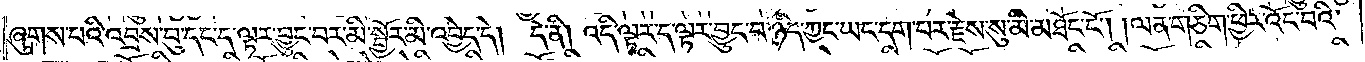ཞུགས་པའི་འབྲས་བུ་དང་ད་ལྟར་བྱུང་བར་མི་སྦྱོར་མི་འབྱེད་དེ། དེ་ནི། འདི་ལྟར་ད་ལྟར་བྱུང་བ་ཉིད་ཀྱང་ཡང་དག་པར་རྗེས་སུ་མི་མཐོང་ངོ༌། །ལན་གཅིག་ཕྱིར་འོང་བའི་
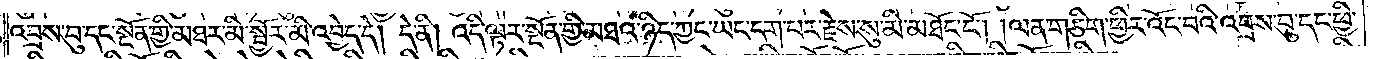འབྲས་བུ་དང་སྔོན་གྱི་མཐར་མི་སྦྱོར་མི་འབྱེད་དེ། དེ་ནི། འདི་ལྟར་སྔོན་གྱི་མཐའ་ཉིད་ཀྱང་ཡང་དག་པར་རྗེས་སུ་མི་མཐོང་ངོ༌། །ལན་གཅིག་ཕྱིར་འོང་བའི་འབྲས་བུ་དང་ཕྱི་
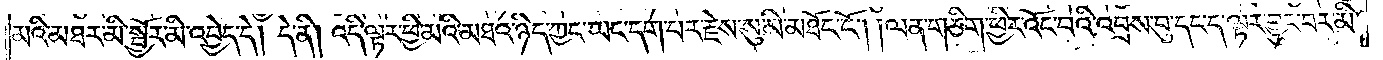མའི་མཐར་མི་སྦྱོར་མི་འབྱེད་དེ། དེ་ནི། འདི་ལྟར་ཕྱི་མའི་མཐའ་ཉིད་ཀྱང་ཡང་དག་པར་རྗེས་སུ་མི་མཐོང་ངོ༌། །ལན་གཅིག་ཕྱིར་འོང་བའི་འབྲས་བུ་དང་ད་ལྟར་བྱུང་བར་མི་
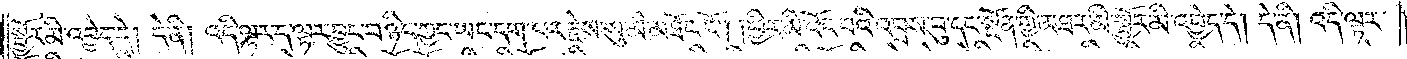སྦྱོར་མི་འབྱེད་དེ། དེ་ནི། འདི་ལྟར་ད་ལྟར་བྱུང་བ་ཉིད་ཀྱང་ཡང་དག་པར་རྗེས་སུ་མི་མཐོང་ངོ༌། །ཕྱིར་མི་འོང་བའི་འབྲས་བུ་དང་སྔོན་གྱི་མཐར་མི་སྦྱོར་མི་འབྱེད་དེ། དེ་ནི། འདི་ལྟར་
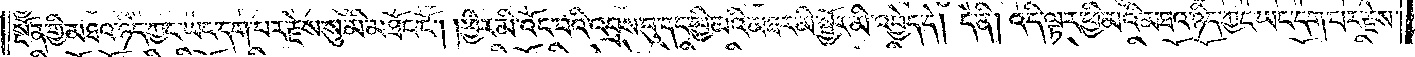སྔོན་གྱི་མཐའ་ཉིད་ཀྱང་ཡང་དག་པར་རྗེས་སུ་མི་མཐོང་ངོ༌། །ཕྱིར་མི་འོང་བའི་འབྲས་བུ་དང་ཕྱི་མའི་མཐར་མི་སྦྱོར་མི་འབྱེད་དེ། དེ་ནི། འདི་ལྟར་ཕྱི་མའི་མཐའ་ཉིད་ཀྱང་ཡང་དག་པར་རྗེས་
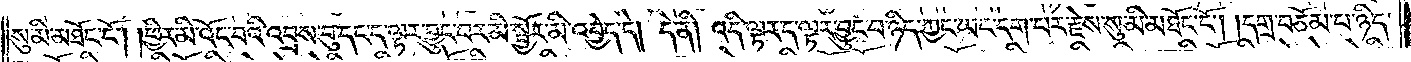སུ་མི་མཐོང་ངོ༌། །ཕྱིར་མི་འོང་བའི་འབྲས་བུ་དང་ད་ལྟར་བྱུང་བར་མི་སྦྱོར་མི་འབྱེད་དེ། དེ་ནི། འདི་ལྟར་ད་ལྟར་བྱུང་བ་ཉིད་ཀྱང་ཡང་དག་པར་རྗེས་སུ་མི་མཐོང་ངོ༌། །དགྲ་བཅོམ་པ་ཉིད་
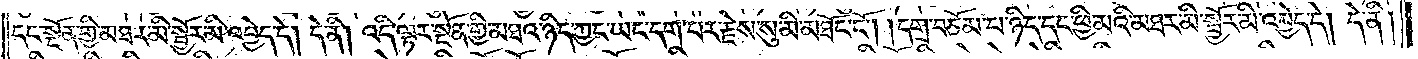དང་སྔོན་གྱི་མཐར་མི་སྦྱོར་མི་འབྱེད་དེ། དེ་ནི། འདི་ལྟར་སྔོན་གྱི་མཐའ་ཉིད་ཀྱང་ཡང་དག་པར་རྗེས་སུ་མི་མཐོང་ངོ༌། །དགྲ་བཅོམ་པ་ཉིད་དང་ཕྱི་མའི་མཐར་མི་སྦྱོར་མི་འབྱེད་དེ། དེ་ནི།
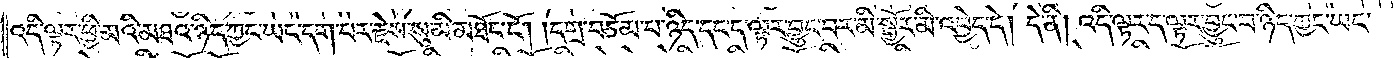འདི་ལྟར་ཕྱི་མའི་མཐའ་ཉིད་ཀྱང་ཡང་དག་པར་རྗེས་སུ་མི་མཐོང་ངོ༌། །དགྲ་བཅོམ་པ་ཉིད་དང་ད་ལྟར་བྱུང་བར་མི་སྦྱོར་མི་འབྱེད་དེ། དེ་ནི། འདི་ལྟར་ད་ལྟར་བྱུང་བ་ཉིད་ཀྱང་ཡང་
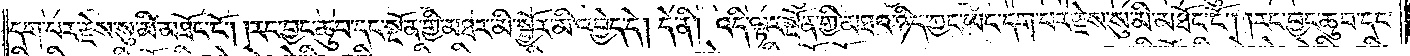དག་པར་རྗེས་སུ་མི་མཐོང་ངོ༌། །རང་བྱང་ཆུབ་དང་སྔོན་གྱི་མཐར་མི་སྦྱོར་མི་འབྱེད་དེ། དེ་ནི། འདི་ལྟར་སྔོན་གྱི་མཐའ་ཉིད་ཀྱང་ཡང་དག་པར་རྗེས་སུ་མི་མཐོང་ངོ༌། །རང་བྱང་ཆུབ་དང་
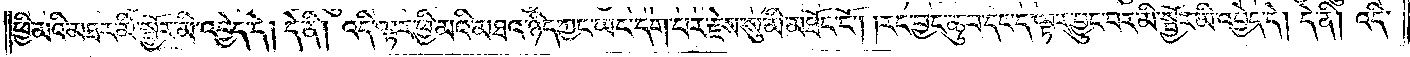ཕྱི་མའི་མཐར་མི་སྦྱོར་མི་འབྱེད་དེ། དེ་ནི། འདི་ལྟར་ཕྱི་མའི་མཐའ་ཉིད་ཀྱང་ཡང་དག་པར་རྗེས་སུ་མི་མཐོང་ངོ༌། །རང་བྱང་ཆུབ་དང་ད་ལྟར་བྱུང་བར་མི་སྦྱོར་མི་འབྱེད་དེ། དེ་ནི། འདི་
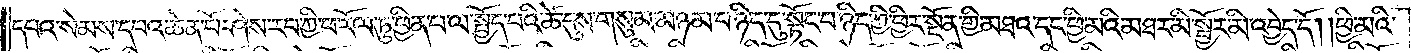དཔའ་སེམས་དཔའ་ཆེན་པོ་ཤེས་རབ་ཀྱི་ཕ་རོལ་ཏུ་ཕྱིན་པ་ལ་སྤྱོད་པའི་ཚེ་དུས་གསུམ་མཉམ་པ་ཉིད་དུ་སྟོང་པ་ཉིད་ཀྱི་ཕྱིར་སྔོན་གྱི་མཐའ་དང་ཕྱི་མའི་མཐར་མི་སྦྱོར་མི་འབྱེད་དོ། །ཕྱི་མའི་
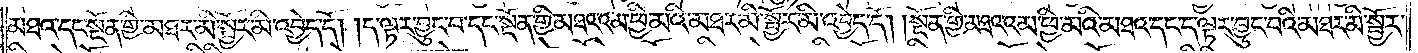མཐའ་དང་སྔོན་གྱི་མཐར་མི་སྦྱོར་མི་འབྱེད་དོ། །ད་ལྟར་བྱུང་བ་དང་སྔོན་གྱི་མཐའ་འམ་ཕྱི་མའི་མཐར་མི་སྦྱོར་མི་འབྱེད་དོ། །སྔོན་གྱི་མཐའ་མ་ཕྱི་མའི་མཐའ་དང་ད་ལྟར་བྱུང་བའི་མཐར་མི་སྦྱོར་
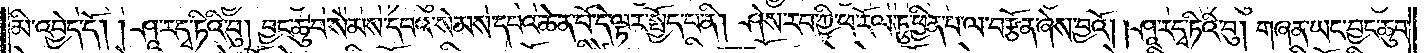མི་འབྱེད་དོ། །ཤཱ་ར་དྭ་ཏིའི་བུ། བྱང་ཆུབ་སེམས་དཔའ་སེམས་དཔའ་ཆེན་པོ་དེ་ལྟར་སྤྱོད་པ་ནི། ཤེས་རབ་ཀྱི་ཕ་རོལ་ཏུ་ཕྱིན་པ་ལ་བརྩོན་ཞེས་བྱའོ། །ཤཱ་ར་དྭ་ཏིའི་བུ། གཞན་ཡང་བྱང་ཆུབ་
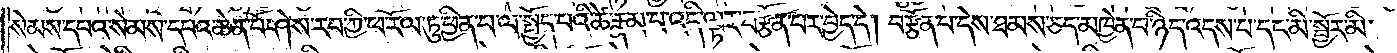སེམས་དཔའ་སེམས་དཔའ་ཆེན་པོ་ཤེས་རབ་ཀྱི་ཕ་རོལ་ཏུ་ཕྱིན་པ་ལ་སྤྱོད་པའི་ཚེ་རྣམ་པ་འདི་ལྟར་བརྩོན་པར་བྱེད་དེ། བརྩོན་པ་དེས་ཐམས་ཅད་མཁྱེན་པ་ཉིད་འདས་པ་དང་མི་སྦྱོར་མི་
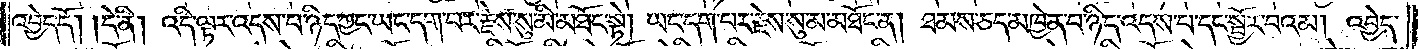འབྱེད་དོ། །དེ་ནི། འདི་ལྟར་འདས་པ་ཉིད་ཀྱང་ཡང་དག་པར་རྗེས་སུ་མི་མཐོང་སྟེ། ཡང་དག་པར་རྗེས་སུ་མ་མཐོང་ན། ཐམས་ཅད་མཁྱེན་པ་ཉིད་འདས་པ་དང་སྦྱོར་བའམ། འབྱེད་
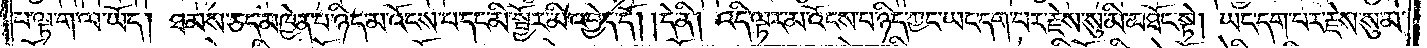པ་ལྟ་ག་ལ་ཡོད། ཐམས་ཅད་མཁྱེན་པ་ཉིད་མ་འོངས་པ་དང་མི་སྦྱོར་མི་འབྱེད་དོ། །དེ་ནི། འདི་ལྟར་མ་འོངས་པ་ཉིད་ཀྱང་ཡང་དག་པར་རྗེས་སུ་མི་མཐོང་སྟེ། ཡང་དག་པར་རྗེས་སུ་མ་
